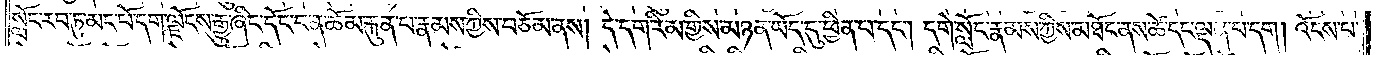སློང་རབ་ཏུ་མང་པོ་དག་ལྗོངས་རྒྱུ་ཞིང་དོང་བ་ན་ཆོམ་རྐུན་པ་རྣམས་ཀྱིས་བཅོམ་ནས། དེ་དག་རིམ་གྱིས་མཉན་ཡོད་དུ་ཕྱིན་པ་དང༌། དགེ་སློང་རྣམས་ཀྱིས་མཐོང་ནས་ཚེ་དང་ལྡན་པ་དག །འོངས་པ་
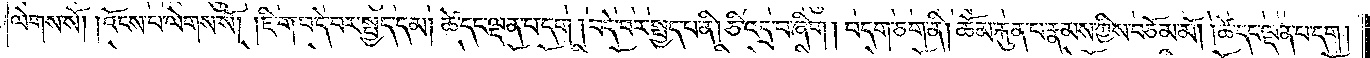ལེགས་སོ། །འོངས་པ་ལེགས་སོ། །ཇི་ག་བདེ་བར་སྤྱད་དམ། ཚེ་དང་ལྡན་པ་དག །བདེ་བར་སྤྱད་པ་ནི། ཅི་འདྲ་བ་ཞིག །བདག་ཅག་ནི། ཆོམ་རྐུན་པ་རྣམས་ཀྱིས་བཅོམ་མོ། །ཚེ་དང་ལྡན་པ་དག།
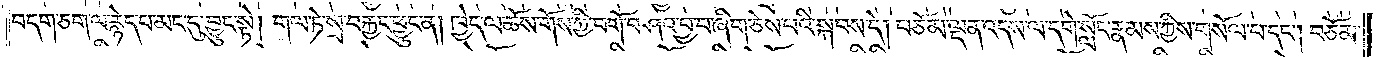བདག་ཅག་ལ་རྙེད་པ་མང་དུ་བྱུང་སྟེ། གལ་ཏེ་སྲ་བརྐྱང་ཕྱུང་ན། ཁྱེད་ལ་ཆོས་གོས་ཀྱི་བགོ་བཤའ་བྱ་བ་ཞིག་ཅེས་པའི་སྐབས་དེ། བཅོམ་ལྡན་འདས་ལ་དགེ་སློང་རྣམས་ཀྱིས་གསོལ་པ་དང༌། བཅོམ་
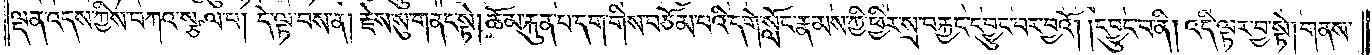ལྡན་འདས་ཀྱིས་བཀའ་སྩལ་པ། དེ་ལྟ་བས་ན། རྗེས་སུ་གནང་སྟེ། ཆོམ་རྐུན་པ་དག་གིས་བཅོམ་པའི་དགེ་སློང་རྣམས་ཀྱི་ཕྱིར་སྲ་བརྐྱང་དབྱུང་བར་བྱའོ། །དབྱུང་བ་ནི། འདི་ལྟར་བྱ་སྟེ། གནས་
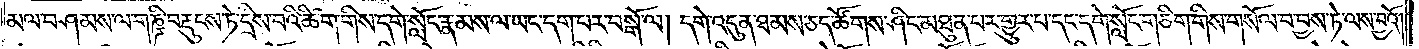མལ་བཤམས་ལ་གཎྜི་བརྡུངས་ཏེ་དྲིས་པའི་ཚིག་གིས་དགེ་སློང་རྣམས་ལ་ཡང་དག་པར་བསྒོ་ལ། དགེ་འདུན་ཐམས་ཅད་ཚོགས་ཤིང་མཐུན་པར་གྱུར་པ་དང་དགེ་སློང་གཅིག་གིས་གསོལ་བ་བྱས་ཏེ་ལས་བྱའོ།
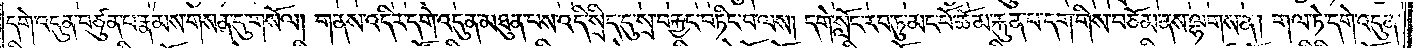དགེ་འདུན་བཙུན་པ་རྣམས་གསན་དུ་གསོལ། གནས་འདིར་དགེ་འདུན་མཐུན་པས་འདི་སྲིད་དུ་སྲ་བརྐྱང་བཏིང་བ་ལས། དགེ་སློང་རབ་ཏུ་མང་པོ་ཆོམ་རྐུན་པ་དག་གིས་བཅོམ་ནས་ལྷགས་ན། གལ་ཏེ་དགེ་འདུན་
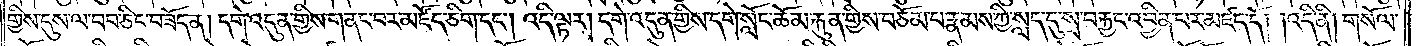གྱིས་དུས་ལ་བབ་ཅིང་བཟོད་ན། དགེ་འདུན་གྱིས་གནང་བར་མཛོད་ཅིག་དང༌། འདི་ལྟར། དགེ་འདུན་གྱིས་དགེ་སློང་ཆོམ་རྐུན་གྱིས་བཅོམ་པ་རྣམས་ཀྱི་སླད་དུ་སྲ་བརྐྱང་འབྱིན་པར་མཛད་དོ། །འདི་ནི། གསོལ་
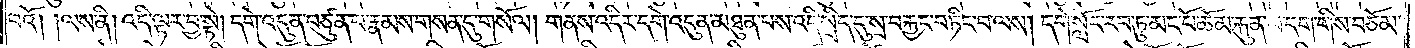བའོ། །ལས་ནི། འདི་ལྟར་བྱ་སྟེ། དགེ་འདུན་བཙུན་པ་རྣམས་གསན་དུ་གསོལ། གནས་འདིར་དགེ་འདུན་མཐུན་པས་འདི་སྲིད་དུ་སྲ་བརྐྱང་བཏིང་བ་ལས། དགེ་སློང་རབ་ཏུ་མང་པོ་ཆོམ་རྐུན་པ་དག་གིས་བཅོམ་
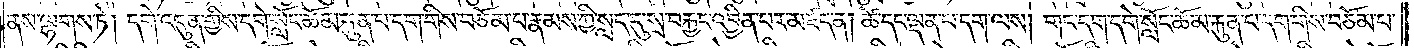ནས་ལྷགས་ཏེ། དགེ་འདུན་གྱིས་དགེ་སློང་ཆོམ་རྐུན་པ་དག་གིས་བཅོམ་པ་རྣམས་ཀྱི་སླད་དུ་སྲ་བརྐྱང་འབྱིན་པར་མཛད་ན། ཚེ་དང་ལྡན་པ་དག་ལས། གང་དག་དགེ་སློང་ཆོམ་རྐུན་པ་དག་གིས་བཅོམ་པ་
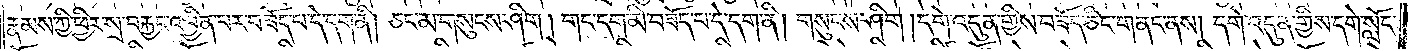རྣམས་ཀྱི་ཕྱིར་སྲ་བརྐྱང་འབྱིན་པར་བཟོད་པ་དེ་དག་ནི། ཅང་མ་གསུངས་ཤིག །གང་དག་མི་བཟོད་པ་དེ་དག་ནི། གསུངས་ཤིག། དགེ་འདུན་གྱིས་བཟོད་ཅིང་གནང་ནས། དགེ་འདུན་གྱིས་དགེ་སློང་
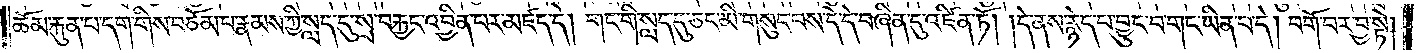ཆོམ་རྐུན་པ་དག་གིས་བཅོམ་པ་རྣམས་ཀྱི་སླད་དུ་སྲ་བརྐྱང་འབྱིན་པར་མཛད་དེ། གང་གི་སླད་དུ་ཅང་མི་གསུང་བས་དེ་དེ་བཞིན་དུ་འཛིན་ཏོ། །དེ་ནས་རྙེད་པ་བྱུང་བ་གང་ཡིན་པ་དེ། བགོ་བར་བྱ་སྟེ།
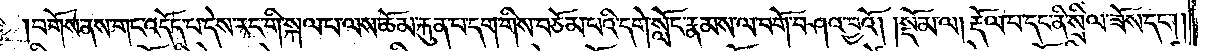བགོས་ནས་གང་འདོད་པ་དེས་རང་གི་སྐལ་པ་ལས་ཆོམ་རྐུན་པ་དག་གིས་བཅོམ་པའི་དགེ་སློང་རྣམས་ལ་བགོ་བཤའ་བྱའོ།    །སྡོམ་ལ། རྡོལ་པ་དང་ནི་སྲིལ་ཟོས་དང༌།
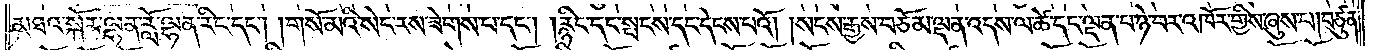མཐའ་སྐོར་ལྷན་རློ་ལྷན་རིང་དང༌། །གསོ་མའི་སེང་རས་ཟེགས་པ་དང༌། །རྙིང་དང་སྤངས་དང་དེངས་པའོ། །སངས་རྒྱས་བཅོམ་ལྡན་འདས་ལ་ཚེ་དང་ལྡན་པ་ཉེ་བར་འཁོར་གྱིས་ཞུས་པ། བཙུན་
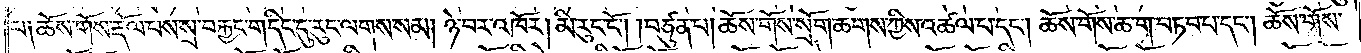པ༑ ཆོས་གོས་རྡོལ་པས་སྲ་བརྐྱང་གདིང་དུ་རུང་ལགས་སམ། ཉེ་བར་འཁོར། མི་རུང་ངོ༌། །བཙུན་པ། ཆོས་གོས་སྲོག་ཆགས་ཀྱིས་འཚལ་པ་དང༌། ཆོས་གོས་ཆ་ག་བཏབ་པ་དང༌། ཆོས་གོས་
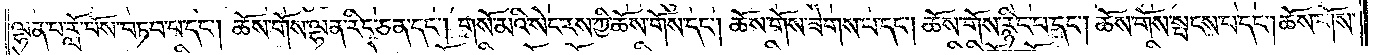ལྷན་པ་རློ་བོས་བཏབ་པ་དང༌། ཆོས་གོས་ལྷན་རིང་ཅན་དང༌། གསོ་མའི་སེང་རས་ཀྱི་ཆོས་གོས་དང༌། ཆོས་གོས་ཟེགས་པ་དང༌། ཆོས་གོས་རྙིང་པ་དང༌། ཆོས་གོས་སྤངས་པ་དང༌། ཆོས་གོས་
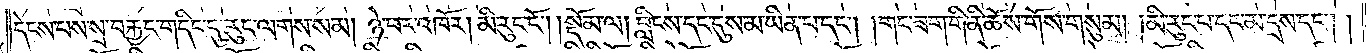དེངས་པས་སྲ་བརྐྱང་གདིང་དུ་རུང་ལགས་སམ། ཉེ་བར་འཁོར། མི་རུང་ངོ༌།    །སྡོམ་ལ། བླིངས་དང་དུས་མ་ཡིན་པ་དང༌། །གང་ཟག་གི་ནི་ཆོས་གོས་གསུམ། །མི་རུང་བ་དང་མ་དྲས་དང༌། །
